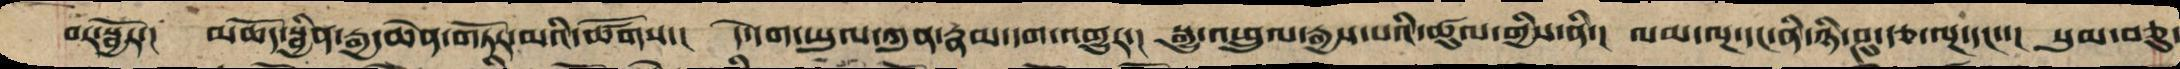བར་སྦྱོར་། མཆོད་སྦྱིན་རྒྱ་ཆེན་གཏོར་མའི་ཚོགས་། དེ་དག་ཡུལ་ཀུན་རྣམ་དག་འགྱུར་། སྒྱུ་འཕྲུལ་རྒྱས་པའི་ཚུལ་གྱིས་ནི་། ལམ་ལྔ་དང་ནི་ཉི་ཤུ་རྩ་ལྔ་དང་་། སུམ་ཅུ་
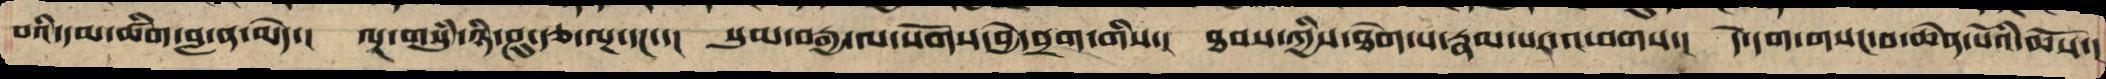བའི་དམ་ཚིག་བླ་ན་མེད་། ལྔ་གསུཾ་ཉི་ཤུ་རྩ་ལྔ་དང་་། སུམ་བརྒྱ་ལ་སོགས་བྱེ་བྲག་གིས་། ཐབས་ཀྱི་ཐེག་པ་རྣམ་པར་འཕགས་། དེ་དག་གསང་བ་ཆེན་པོའི་ཆོས་།
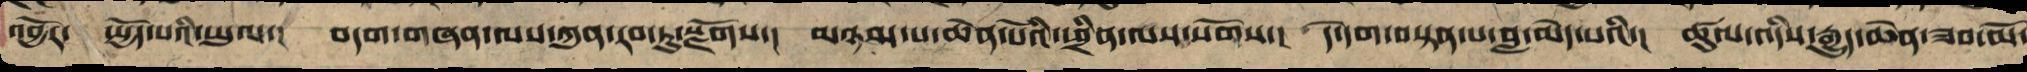འབྱོར་སྤྱོད་པའི་ཡུལ་། བདག་གཞན་ལས་ཀུན་རབ་ཏུ་སྫོགས་། མཉམ་པ་ཆེན་པོའི་ཕྲིན་ལས་སོགས་། དེ་དག་བསྟན་པ་བླ་མེད་པའི་། ཚུལ་འདིས་རྒྱུད་ཆེན་ཟབ་མོ་
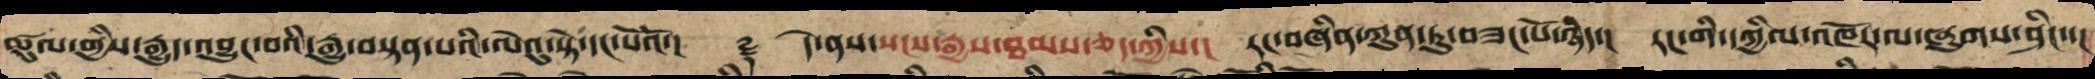ཚུལ་གྱིས་རྒྱུད་འབྱུང་བའི་རྒྱུ་བསྟན་པའི་ལེའུ་སྟེ་དང་པོའོ་།།    ༈   དེ་ནས་སངས་རྒྱས་ཐམས་ཅད་ཀྱིས་། རང་བཞིན་ཀུན་ཏུ་བཟང་པོ་ཉིད་། རང་གི་དཀྱིལ་འཁོར་ལ་ཞུགས་ཤིང་་།
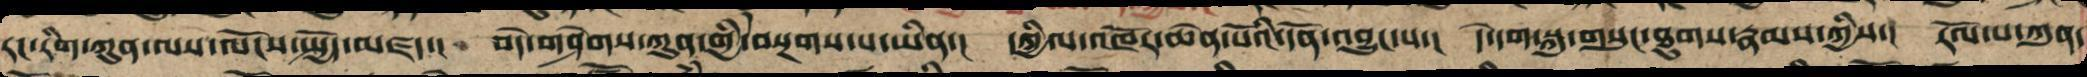རང་རིག་ཀུན་ལས་ལོངས་སྤྱོད་མཛད་། བདེ་གཤེགས་ཀུན་གྱི་བསྔགས་པ་ཡིན་། དཀྱིལ་འཁོར་ཆེན་པོའི་དོན་འབྱུང་བ་། དེ་དག་སྐུ་གསུང་ཐུགས་རྣམས་ཀྱིས་། རོལ་པ་ཀུན་
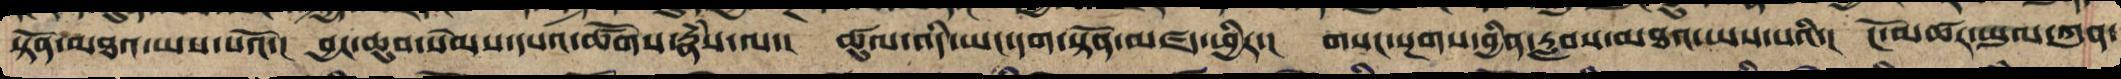སྟོན་མཐའ་ཡས་པའོ་། བྱང་ཆུབ་སེམས་དཔའ་ཚོགས་རྣཾས་ལ་། ཚུལ་འདི་ཡང་དག་སྟོན་མཛད་ཕྱིར་། གསང་སྔགས་བྱིན་རླབས་མཐའ་ཡས་པའི་། ངོ་མཚར་ཡུལ་ཀུན་
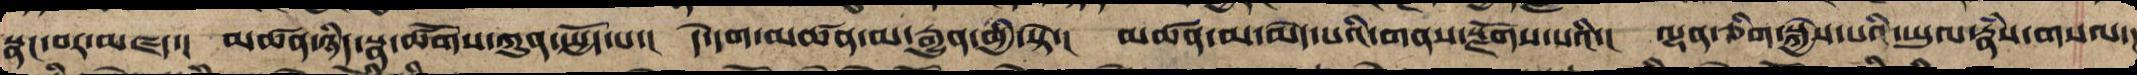སྣང་བར་མཛད་། མཚན་ཉིད་སྣ་ཚོགས་ཀུན་སྤྱོད་པ་། དེ་དག་མཚན་མ་རྒྱུན་གྱི་སྟེ་། མཚན་མ་མེད་པའི་གནས་སྫོགས་པའི་། ལྷན་ཅིག་སྐྱེས་པའི་ཡུལ་རྣཾས་གསལ།
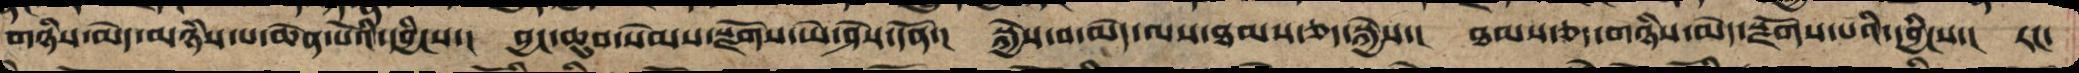གཉིས་མེད་མཉཾས་པ་ཆེན་པོའི་དབྱིངས་། བྱང་ཆུབ་སེམས་སྫོགས་ཡེ་ཤེས་དོན་། སྐྱེས་བ་མེད་ལས་ཐམས་ཅད་སྐྱེས་། ཐམས་ཅད་གཉིས་མེད་སྫོགས་པའི་དབྱིངས་། རང་
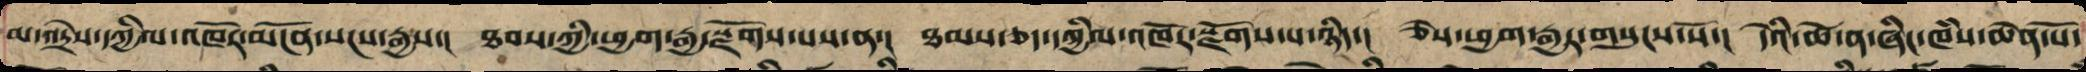མ་འདྲེས་དཀྱིལ་འཁོར་མངོན་སངས་རྒྱས་། ཐབས་ཀྱི་ཕྱག་རྒྱ་སྫོགས་པས་ན་། ཐམས་ཅད་དཀྱིལ་འཁོར་སྫོགས་པ་ཉིད་། ཅེས་ཕྱགརྒྱར་གསུངས་སོ་། དེའི་ཚེ་ན་ཞིང་ཁཾས་ཆེན་པོ་
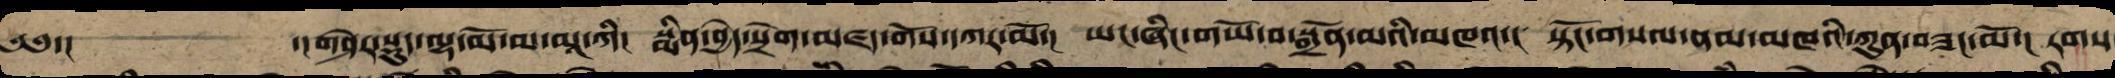༄༅་།         ་།གཤེར་སྡུད་ལྷ་མོ་མ་མཱ་ཀི། སྨིན་བྱེད་སྲེག་མཛད་གོས་དཀར་མོ་། ཡང་ཞིང་གཡོ་བ་སྒྲོལ་མའི་མཁའ་། སྟོང་གསལ་ནམ་མཁའི་ཀུན་བཟང་མོ་། རགས་
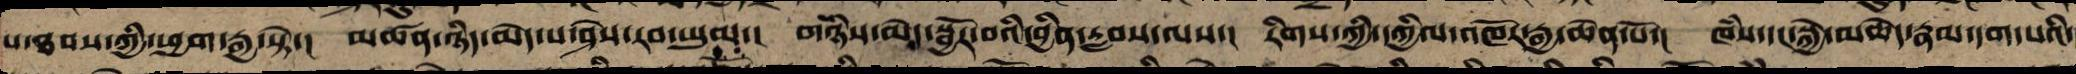པ་ཐབས་ཀྱི་ཕྱག་རྒྱ་སྟེ་། མཚན་ཉིད་མེད་པ་ཤེས་རབ་ཡུམ་། གཉཾས་མེད་སྦྱོར་བའི་བྱིན་རླབས་ལས་། རིགས་ཀྱི་དཀྱིལ་འཁོར་རྒྱ་ཆེན་པོ་། ཁཾས་དང་སྐྱེ་མཆེད་རྣམ་དག་པའི་
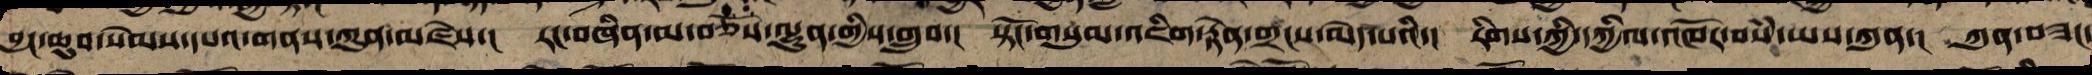བྱང་ཆུབ་སེམས་དཔའ་གནས་ཀུན་མཛེས་། རང་བཞིན་མ་བཅོས་ལྷུན་གྱིས་གྲུབ་། སྟོང་གསུམ་འཇིག་རྟེན་གྲངས་མེད་པའི་། རིགས་ཀྱི་དཀྱིལ་འཁོར་བསཾ་ཡས་ཀུན་། ཀུན་བཟང་
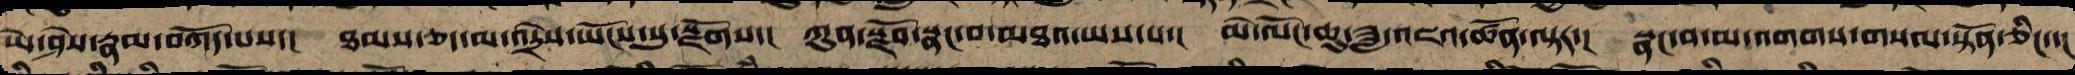ཡེ་ཤེས་རྣམ་བཀོད་པས་། ཐམས་ཅད་མ་འདྲེས་ཡོངས་སུ་སྫོགས་། ཀུན་སྫོབ་སྣང་བ་མཐའ་ཡས་པ་། མེ་ལོང་ཆུ་ཟླ་འཇའ་ཚོན་ལྟར་། སྣང་བ་མ་འགགས་གསལ་སྟོན་ཅིང་་།
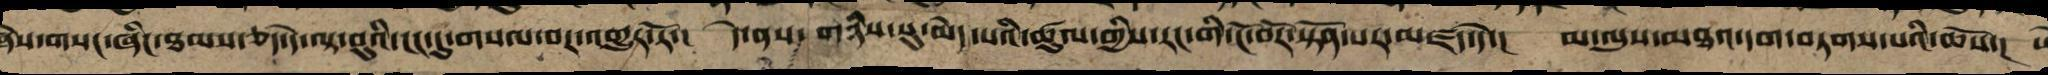ཞེས་གསང་ཞིང་ཐམས་ཅད་དེ་ལྟ་བུའི་ངང་དུ་གསལ་བར་གྱུར་ཏོ་། དེ་ནས་གཉིས་སུ་མེད་པའི་ཚུལ་གྱིས་རང་གི་ངོ་བོར་སྟོན་པར་མཛད་དེ་། མ་ལུས་མཐའ་དག་བཏགས་པའི་ཆོས་། ཡེ
